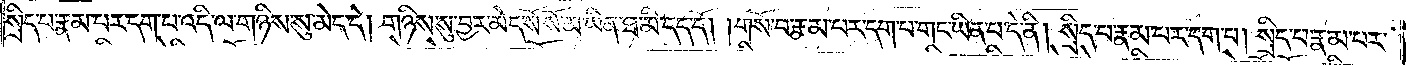སྲིད་པ་རྣམ་པར་དག་པ་འདི་ལ་གཉིས་སུ་མེད་དེ། གཉིས་སུ་བྱར་མེད་སོ་སོ་མ་ཡིན་ཐ་མི་དད་དོ། །གསོ་བ་རྣམ་པར་དག་པ་གང་ཡིན་པ་དེ་ནི། སྲིད་པ་རྣམ་པར་དག་པ། སྲིད་པ་རྣམ་པར་
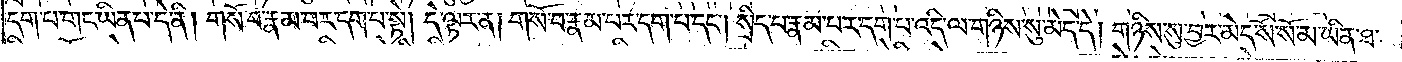དག་པ་གང་ཡིན་པ་དེ་ནི། གསོ་བ་རྣམ་པར་དག་པ་སྟེ། དེ་ལྟར་ན། གསོ་བ་རྣམ་པར་དག་པ་དང༌། སྲིད་པ་རྣམ་པར་དག་པ་འདི་ལ་གཉིས་སུ་མེད་དེ། གཉིས་སུ་བྱར་མེད་སོ་སོ་མ་ཡིན་ཐ་
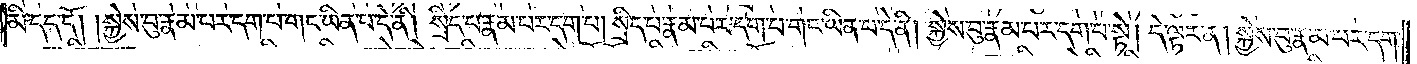མི་དད་དོ། །སྐྱེས་བུ་རྣམ་པར་དག་པ་གང་ཡིན་པ་དེ་ནི། སྲིད་པ་རྣམ་པར་དག་པ། སྲིད་པ་རྣམ་པར་དག་པ་གང་ཡིན་པ་དེ་ནི། སྐྱེས་བུ་རྣམ་པར་དག་པ་སྟེ། དེ་ལྟར་ན། སྐྱེས་བུ་རྣམ་པར་དག་
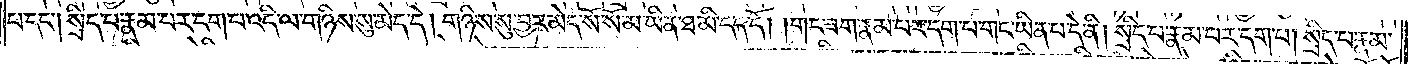པ་དང༌། སྲིད་པ་རྣམ་པར་དག་པ་འདི་ལ་གཉིས་སུ་མེད་དེ། གཉིས་སུ་བྱར་མེད་སོ་སོ་མ་ཡིན་ཐ་མི་དད་དོ། །གང་ཟག་རྣམ་པར་དག་པ་གང་ཡིན་པ་དེ་ནི། སྲིད་པ་རྣམ་པར་དག་པ། སྲེད་པ་རྣམ་
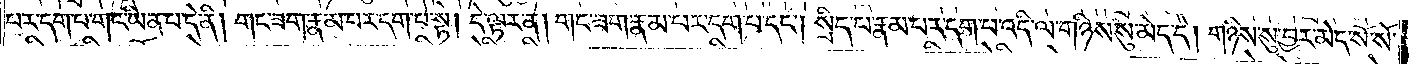པར་དག་པ་གང་ཡིན་པ་དེ་ནི། གང་ཟག་རྣམ་པར་དག་པ་སྟེ། དེ་ལྟར་ན། གང་ཟག་རྣམ་པར་དག་པ་དང༌། སྲིད་པ་རྣམ་པར་དག་པ་འདི་ལ་གཉིས་སུ་མེད་དེ། གཉིས་སུ་བྱར་མེད་སོ་སོ་
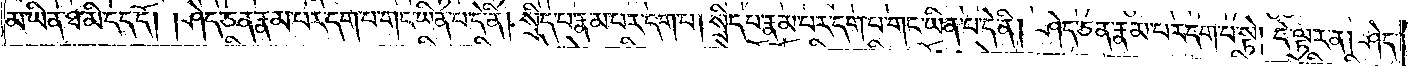མ་ཡིན་ཐ་མི་དད་དོ། །ཤེད་ཅན་རྣམ་པར་དག་པ་གང་ཡིན་པ་དེ་ནི། སྲིད་པ་རྣམ་པར་དག་པ། སྲིད་པ་རྣམ་པར་དག་པ་གང་ཡིན་པ་དེ་ནི། ཤེད་ཅན་རྣམ་པར་དག་པ་སྟེ། དེ་ལྟར་ན། ཤེད་
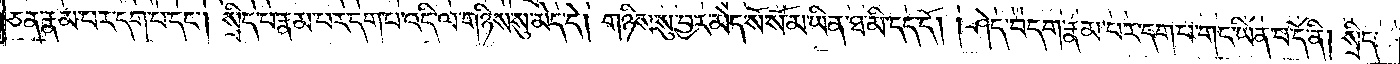ཅན་རྣམ་པར་དག་པ་དང༌། སྲིད་པ་རྣམ་པར་དག་པ་འདི་ལ་གཉིས་སུ་མེད་དེ། གཉིས་སུ་བྱར་མེད་སོ་སོ་མ་ཡིན་ཐ་མི་དད་དོ། ཤེད་བདག་རྣམ་པར་དག་པ་གང་ཡིན་པ་དེ་ནི། སྲིད་
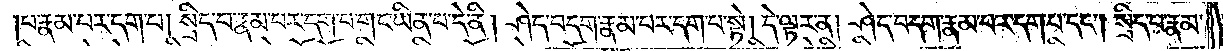པ་རྣམ་པར་དག་པ། སྲིད་པ་རྣམ་པར་དག་པ་གང་ཡིན་པ་དེ་ནི། ཤེད་བདག་རྣམ་པར་དག་པ་སྟེ། དེ་ལྟར་ན། ཤེད་བདག་རྣམ་པར་དག་པ་དང༌། སྲིད་པ་རྣམ་
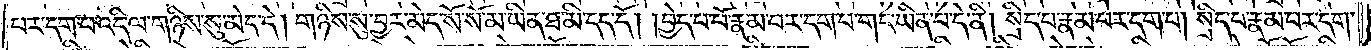པར་དག་པ་འདི་ལ་གཉིས་སུ་མེད་དེ། གཉིས་སུ་བྱར་མེད་སོ་སོ་མ་ཡིན་ཐ་མི་དད་དོ། །བྱེད་པ་པོ་རྣམ་པར་དག་པ་གང་ཡིན་པ་དེ་ནི། སྲིད་པ་རྣམ་པར་དག་པ། སྲིད་པ་རྣམ་པར་དག་
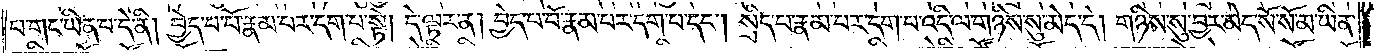པ་གང་ཡིན་པ་དེ་ནི། བྱེད་པ་པོ་རྣམ་པར་དག་པ་སྟེ། དེ་ལྟར་ན། བྱེད་པ་པོ་རྣམ་པར་དག་པ་དང༌། སྲིད་པ་རྣམ་པར་དག་པ་འདི་ལ་གཉིས་སུ་མེད་དེ། གཉིས་སུ་བྱར་མེད་སོ་སོ་མ་ཡིན་
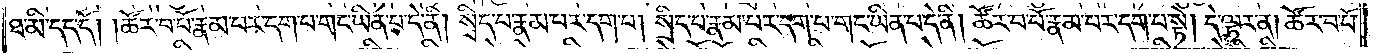ཐ་མི་དད་དོ། །ཚོར་བ་པོ་རྣམ་པར་དག་པ་གང་ཡིན་པ་དེ་ནི། སྲིད་པ་རྣམ་པར་དག་པ། སྲིད་པ་རྣམ་པར་དག་པ་གང་ཡིན་པ་དེ་ནི། ཚོར་བ་པོ་རྣམ་པར་དག་པ་སྟེ། དེ་ལྟར་ན། ཚོར་བ་པོ་
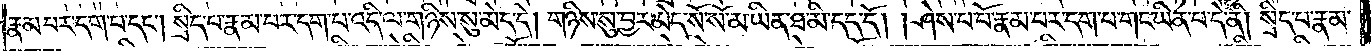རྣམ་པར་དག་པ་དང༌། སྲིད་པ་རྣམ་པར་དག་པ་འདི་ལ་གཉིས་སུ་མེད་དེ། གཉིས་སུ་བྱར་མེད་སོ་སོ་མ་ཡིན་ཐ་མི་དད་དོ། །ཤེས་པ་པོ་རྣམ་པར་དག་པ་གང་ཡིན་པ་དེ་ནི། སྲིད་པ་རྣམ་
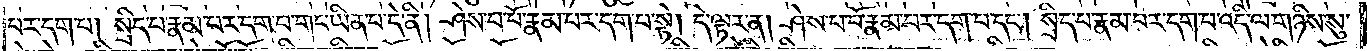པར་དག་པ། སྲིད་པ་རྣམ་པར་དག་པ་གང་ཡིན་པ་དེ་ནི། ཤེས་པ་པོ་རྣམ་པར་དག་པ་སྟེ། དེ་ལྟར་ན། ཤེས་པ་པོ་རྣམ་པར་དག་པ་དང༌། སྲིད་པ་རྣམ་པར་དག་པ་འདི་ལ་གཉིས་སུ་
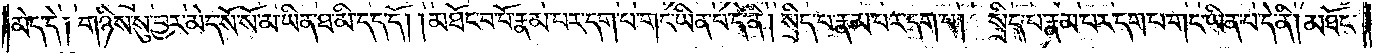མེད་དེ༑ གཉིས་སུ་བྱར་མེད་སོ་སོ་མ་ཡིན་ཐ་མི་དད་དོ། །མཐོང་བ་པོ་རྣམ་པར་དག་པ་གང་ཡིན་པ་དེ་ནི། སྲིད་པ་རྣམ་པར་དག་པ། སྲིད་པ་རྣམ་པར་དག་པ་གང་ཡིན་པ་དེ་ནི། མཐོང་
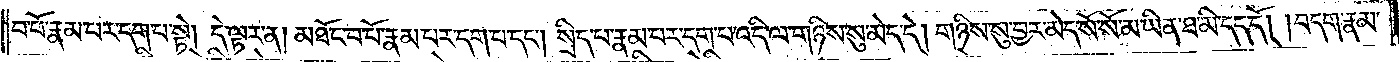བ་པོ་རྣམ་པར་དག་པ་སྟེ། དེ་ལྟར་ན། མཐོང་བ་པོ་རྣམ་པར་དག་པ་དང༌། སྲིད་པ་རྣམ་པར་དག་པ་འདི་ལ་གཉིས་སུ་མེད་དེ། གཉིས་སུ་བྱར་མེད་སོ་སོ་མ་ཡིན་ཐ་མི་དད་དོ། །བདག་རྣམ་
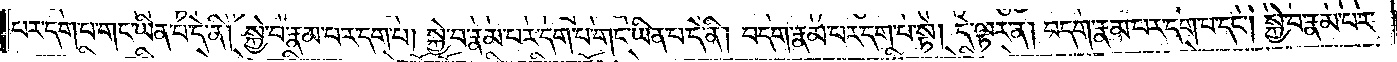པར་དག་པ་གང་ཡིན་པ་དེ་ནི། སྐྱེ་བ་རྣམ་པར་དག་པ་དང༌། སྐྱེ་བ་རྣམ་པར་དག་པ་དང་ཡིན་པ་དེ་ནི། བདག་རྣམ་པར་དག་པ་སྟེ། དེ་ལྟར་ན། བདག་རྣམ་པར་དག་པ་དང༌། སྐྱེ་བ་རྣམ་པར་
